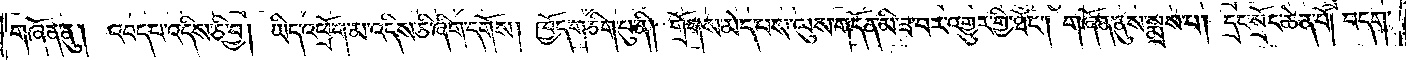གཞོན་ནུ། །འབད་པ་འདིས་ཅི་བྱ། ཡིད་འཕྲོག་མ་འདིས་ཅི་ཞིག་དགོས། ཁྱོད་གཅིག་པུ་ནི། གྲོགས་མེད་པས་ལུས་གདོན་མི་ཟ་བར་འགྱུར་གྱི་ཐོང༌། གཞོན་ནུས་སྨྲས་པ། དྲང་སྲོང་ཆེན་པོ། བདག་
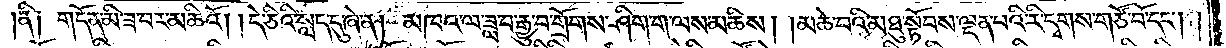།ནི༑ གདོན་མི་ཟ་བར་མཆིའོ། །དེ་ཅིའི་སླད་དུ་ཞེ་ན། མཁའ་ལ་ཟླ་བ་རྒྱུ་བ་གྲོགས་ཤིག་ག་ལས་མཆིས། །མཆེ་བའི་མཐུ་སྟོབས་ལྡན་པའི་རི་དྭགས་གཙོ་བོ་དང༌། །
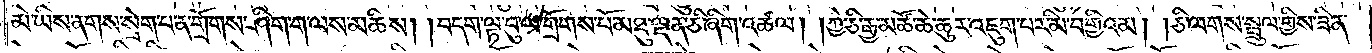མེ་ཡིས་ནགས་སྲེག་པ་ན་གྲོགས་ཤིག་ག་ལས་མཆིས། །བདག་ལྟ་བུ་ལ་གྲོགས་པོ་མཐུ་ལྡན་ཅི་ཞིག་འཚལ། །ཀྱེ་ཅི་རྒྱ་མཚོ་ཆེ་ཆུར་འཇུག་པར་མི་བགྱིའམ། །ཅི་ལགས་སྦྲུལ་གྱིས་ཟིན་
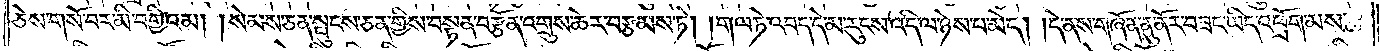ཅེས་གསོ་བར་མི་བགྱིའམ། །སེམས་ཅན་སྤུངས་ཅན་གྱིས་བསྟན་བརྩོན་འགྲུས་ཆེར་བརྩམས་ཏེ། །གལ་ཏེ་འབད་དེ་མ་རུངས་འདི་ལ་ཉེས་པ་མེད། །དེ་ནས་གཞོན་ནུ་ནོར་བཟང་ཡིད་འཕྲོག་མས་
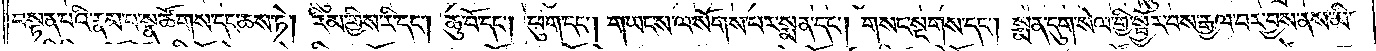བསྟན་པའི་རྣམ་པ་སྣ་ཚོགས་དང་ཆས་ཏེ། རིམ་གྱིས་རི་དང༌། ཆུ་བོ་དང༌། ཕུག་དང༌། གཡང་ས་ལ་སོགས་པར་སྨན་དང༌། གསང་སྔགས་དང༌། སྨན་དུག་སེལ་གྱི་སྦྱོར་བས་རྒྱལ་བར་བྱས་ནས་མི་
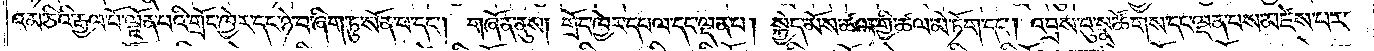འམ་ཅིའི་རྒྱལ་པོ་ལྗོན་པའི་གྲོང་ཁྱེར་དང་ཉེ་བ་ཞིག་ཏུ་སོན་པ་དང༌། གཞོན་ནུས། གྲོང་ཁྱེར་དཔལ་དང་ལྡན་པ། སྐྱེད་མོས་ཚལ་གྱི་ཚལ་མེ་ཏོག་དང༌། འབྲས་བུ་སྣ་ཚོགས་དང་ལྡན་པས་མཛེས་པར་
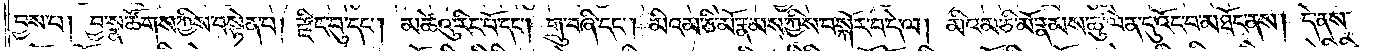བྱས་པ། བྱ་སྣ་ཚོགས་ཀྱིས་བསྟེན་པ། རྫིང་བུ་དང༌། མཚེའུ་རིང་པོ་དང༌། གྲུ་བཞི་དང༌། མིའམ་ཅི་མོ་རྣམས་ཀྱིས་བསྐོར་བ་དེ་ལ། མིའམ་ཅི་མོ་རྣམས་ཆུ་ལེན་དུ་འོང་བ་མཐོང་ནས། དེ་ནས་
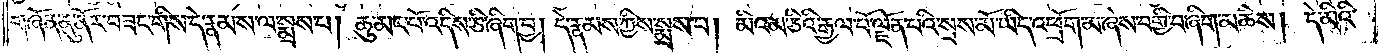གཞོན་ནུ་ནོར་བཟང་གིས་དེ་རྣམས་ལ་སྨྲས་པ། ཆུ་མང་པོ་འདིས་ཅི་ཞིག་བྱ། དེ་རྣམས་ཀྱིས་སྨྲས་པ། མིའམ། ཅིའི་རྒྱལ་པོ་ལྗོན་པའི་སྲས་མོ་ཡིད་འཕྲོག་མ་ཞེས་བགྱི་བ་ཞིག་མཆིས། དེ་མིའི་
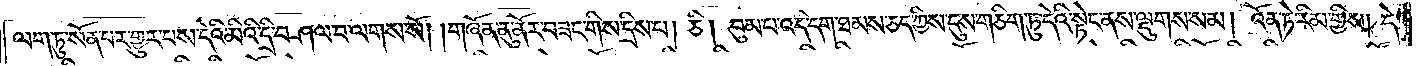ལག་ཏུ་སོན་པར་གྱུར་པས་དེའི་མིའི་དྲི་བཤལ་བ་ལགས་སོ། །གཞོན་ནུ་ནོར་བཟང་གིས་དྲིས་པ། ཅི། བུམ་པ་འདི་དག་ཐམས་ཅད་ཀྱིས་དུས་གཅིག་ཏུ་དེའི་སྟེང་ནས་ལྡུགས་སམ། འོན་ཏེ་རིམ་གྱིས། དེ་
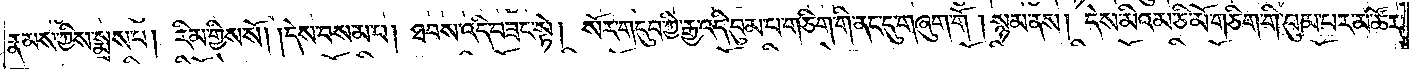རྣམས་ཀྱིས་སྨྲས་པ། རིམ་གྱིས་སོ། །དེས་བསམ་པ། ཐབས་འདི་བཟང་སྟེ། སོར་གདུབ་ཀྱི་རྒྱ་འདི་བུམ་པ་གཅིག་གི་ནང་དུ་གཞུག་གོ། སྙམ་ནས། དེས་མིའམ་ཅི་མོ་གཅིག་གི་བུམ་པར་མ་ཚོར་
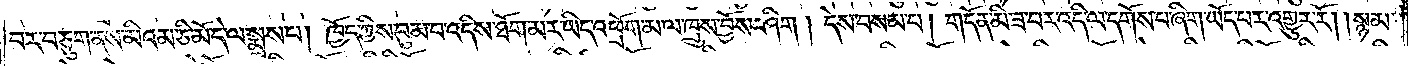བར་བཅུག་ནས་མིའམ་ཅི་མོ་དེ་ལ་སྨྲས་པ། ཁྱོད་ཀྱིས་བུམ་པ་འདིས་ཐོག་མར་ཡིད་འཕྲོག་མ་ལ་ཁྲུས་བྱོས་ཤིག། དེས་བསམ་པ། གདོན་མི་ཟ་བར་འདི་ལ་དགོས་པ་ཞིག་ཡོད་པར་འགྱུར་རོ། །སྙམ་
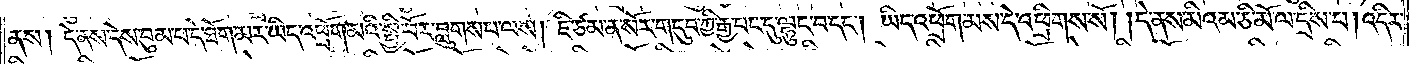ནས། དེ་ནས་དེས་བུམ་པ་དེ་ཐོག་མར་ཡིད་འཕྲོག་མའི་སྤྱི་བོར་བླུགས་པ་ལས། ཇི་ཙམ་ན་སོར་གདུབ་ཀྱི་རྒྱ་པང་དུ་ལྷུང་བ་དང༌། ཡིད་འཕྲོག་མས་དེ་འཕྲིགས་སོ། །དེ་ནས་མིའམ་ཅི་མོ་ལ་དྲིས་པ། འདིར་
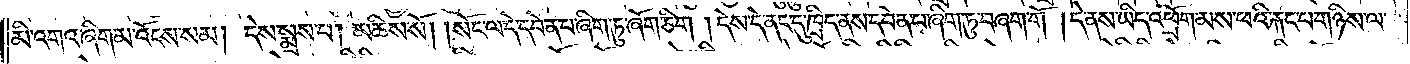མི་འགའ་ཞིག་མ་འོངས་སམ། དེས་སྨྲས་པ། མཆིས་སོ། །སོང་ལ་དེ་དབེན་པ་ཞིག་ཏུ་ཞོག་ཅིག །དེས་དེ་ནང་དུ་ཁྲིད་ནས་དབེན་པ་ཞིག་ཏུ་བཞག་གོ །དེ་ནས་ཡིད་འཕྲོག་མས་ཕའི་རྐང་པ་གཉིས་ལ་
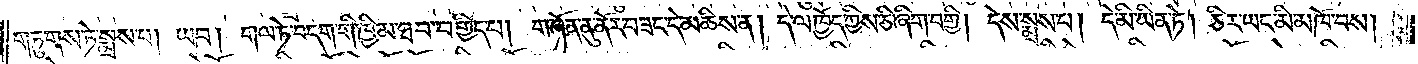གཏུགས་ཏེ་སྨྲས་པ། ཡབ། གལ་ཏེ་བདག་གི་ཁྱིམ་ཐབ་བགྱིད་པ། གཞོན་ནུ་ནོར་བཟང་དེ་མཆིས་ན། དེ་ལ་ཁྱོད་ཀྱིས་ཅི་ཞིག་བགྱི། དེས་སྨྲས་པ། དེ་མི་ཡིན་ཏེ། ཅིར་ཡང་མི་མཁོ་བས།
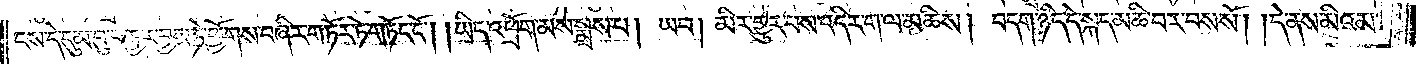ངས་དེ་དུམ་བུ་བརྒྱར་བྱས་ཏེ་ཕྱོགས་བཞིར་གཏོར་ཏེ་གཏོང་ངོ༌། །ཡིད་འཕྲོག་མས་སྨྲས་པ། ཡབ། མིར་གྱུར་པས་འདིར་ག་ལ་མཆིས། བདག་ཉིད་དེ་སྐད་མཆི་བར་བས་སོ། །དེ་ནས་མིའམ་
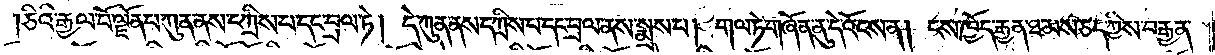ཅིའི་རྒྱལ་པོ་ལྗོན་པ་ཀུན་ནས་དཀྲིས་པ་དང་བྲལ་ཏེ། དེ་ཀུན་ནས་དཀྲིས་པ་དང་བྲལ་ནས་སྨྲས་པ། གལ་ཏེ་གཞོན་ནུ་དེ་འོངས་ན། ངས་ཁྱོད་རྒྱན་ཐམས་ཅད་ཀྱིས་བརྒྱན་
